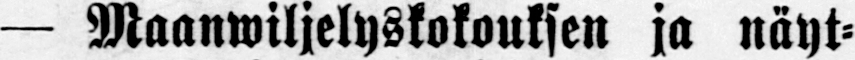— Maanwiljelyskokouksen ja näyt-
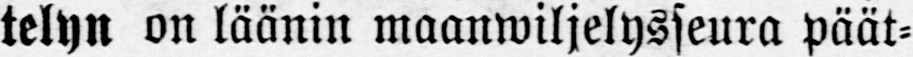telyn on läänin maanwiljelysseura päät-
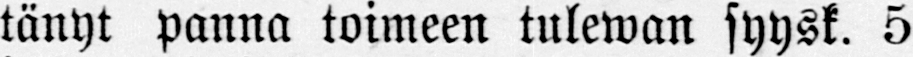tänyt panna toimeen tulewan syysk. 5
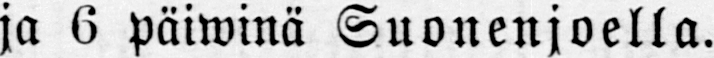ja 6 päiwinä Suonenjoella.
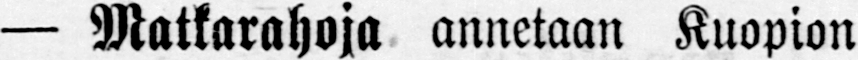— Matkarahoja annetaan Kuopion
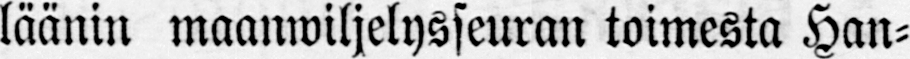läänin maanwiljelysseuran toimesta Han-
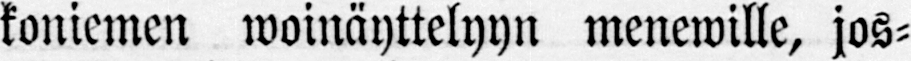koniemen woinäyttelyyn menewille, jos-
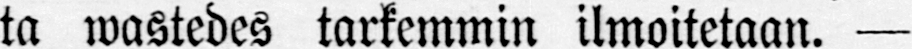ta wastedes tarkemmin ilmoitetaan. —
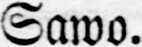Sawo.
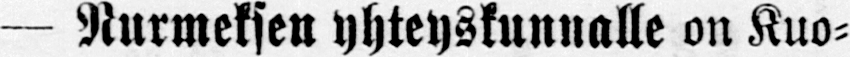— Nurmeksen yhteyskunnalle on Kuo-
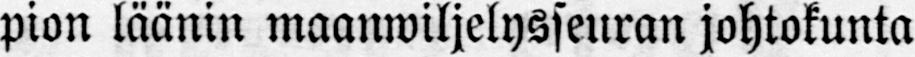pion läänin maanwiljelysseuran johtokunta
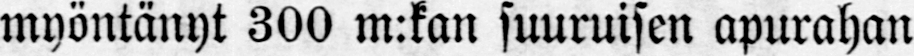myöntänyt 300 m:kan suuruisen apurahan
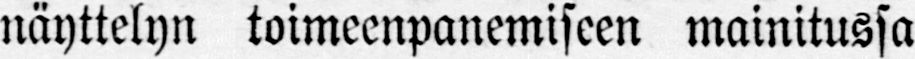näyttelyn toimeenpanemiseen mainitussa
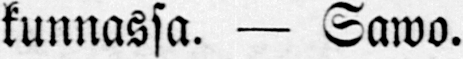kunnassa. — Sawo.
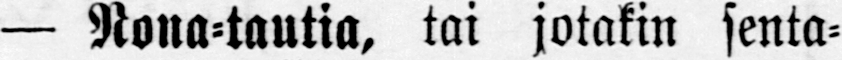— Nona-tautia, tai jotakin senta-
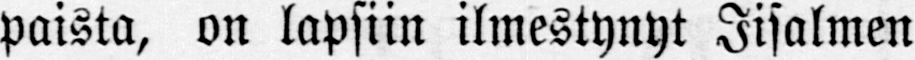paista, on lapsiin ilmestynyt Iisalmen
